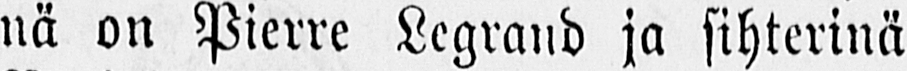nä on Pierre Legrand ja sihterinä
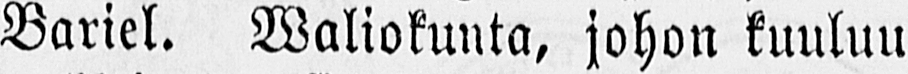Bariel. Waliokunta, johon kuuluu
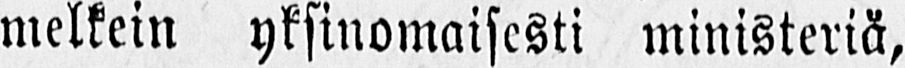melkein yksinomaisesti ministeriä,
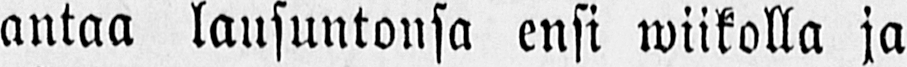antaa lausuntonsa ensi wiikolla ja
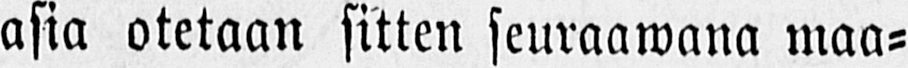asia otetaan sitten seuraawana maa-
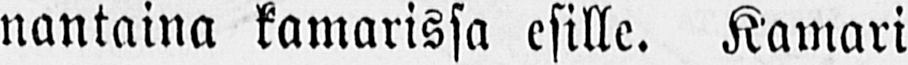nantaina kamarissa esille. Kamari
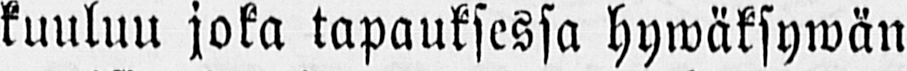kuuluu joka tapauksessa hywäksywän
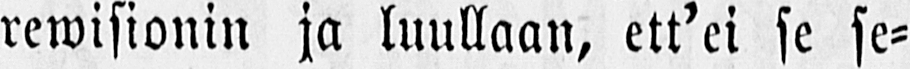rewisionin ja luullaan, ett'ei se se-
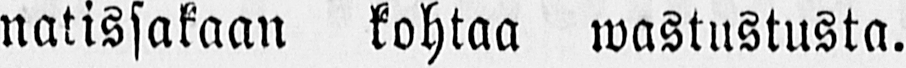natissakaan kohtaa wastustusta.
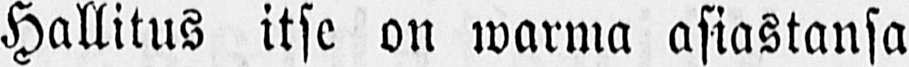Hallitus itse on warma asiastansa
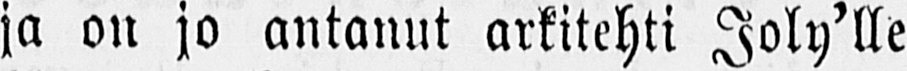ja on jo antanut arkitehti Joly'lle
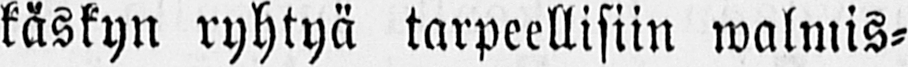käskyn ryhtyä tarpeellisiin walmis-
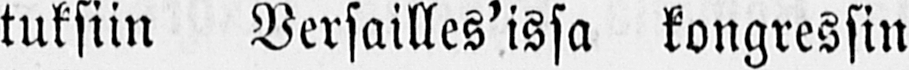tuksiin Versailles'issa kongressin
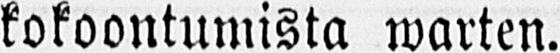kokoontumista warten.
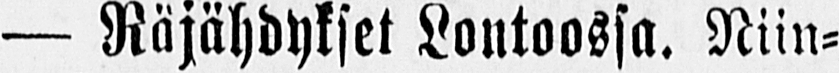— Räjähdykset Lontoossa. Niin-
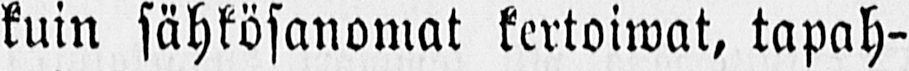kuin sähkösanomat kertoiwat, tapah-
